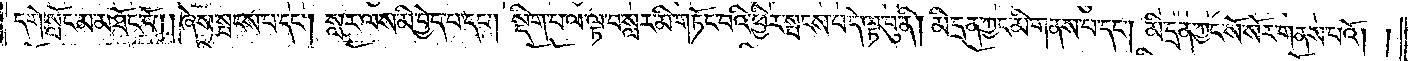དགེ་སློང་མ་མཐོང་ངོ༌། །ཞེས་སྤངས་པ་དང༌། སླར་ལས་མི་བྱེད་པ་དང༌། སྡིག་པ་ལ་ལྟ་བ་སླར་མི་གཏོང་བའི་ཕྱིར་སྤངས་པ་དེ་ལྟ་བུ་ནི། མི་དྲན་ཀྱང་མི་གནས་པ་དང༌། མི་དྲན་ཀྱང་སོ་སོར་གནས་པའོ། །
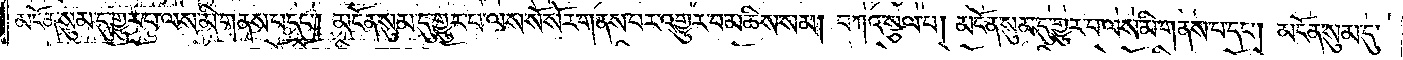མངོན་སུམ་དུ་གྱུར་པ་ལས་མི་གནས་པ་དང༌། མངོན་སུམ་དུ་གྱུར་པ་ལས་སོ་སོར་གནས་པར་འགྱུར་བ་མཆིས་སམ། བཀའ་སྩལ་པ། མངོན་སུམ་དུ་གྱུར་པ་ལས་མི་གནས་པ་དང༌། མངོན་སུམ་དུ་
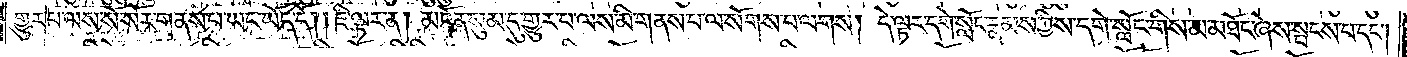གྱུར་པ་ལས་སོ་སོར་གནས་པ་ཡང་ཡོད་དེ། །ཇི་ལྟར་ན། མངོན་སུམ་དུ་གྱུར་པ་ལས་མི་གནས་པ་ལ་སོགས་པ་ལགས། དེ་ལྟར་དགེ་སློང་རྣམས་ཀྱིས་དགེ་སློང་གིས་མ་མཐོང་ཞེས་སྤངས་པ་དང༌།
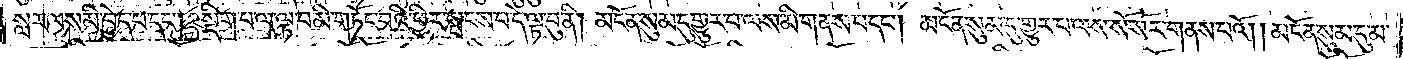སླར་ལས་མི་བྱེད་པ་དང༌། སྡིག་པ་ལ་ལྟ་བ་མི་གཏོང་བའི་ཕྱིར་སྤངས་པ་དེ་ལྟ་བུ་ནི། །མངོན་སུམ་དུ་གྱུར་པ་ལས་མི་གནས་པ་དང༌། མངོན་སུམ་དུ་གྱུར་པ་ལས་སོ་སོར་གནས་པའོ། །མངོན་སུམ་དུ་མ་
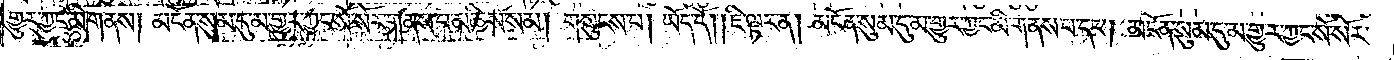གྱུར་ཀྱང་མི་གནས། མངོན་སུམ་དུ་མ་གྱུར་ཀྱང་སོ་སོར་གནས་པ་མཆིས་སམ། གསུངས་པ། ཡོད་དོ། །ཇི་ལྟར་ན། མངོན་སུམ་དུ་མ་གྱུར་ཀྱང་མི་གནས་པ་དང༌། མངོན་སུམ་དུ་མ་གྱུར་ཀྱང་སོ་སོར་
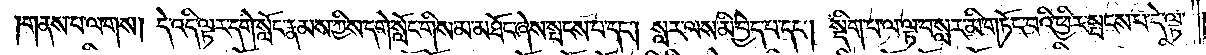གནས་པ་ལགས། དེ་འདི་ལྟར་དགེ་སློང་རྣམས་ཀྱིས་དགེ་སློང་གིས་མ་མཐོང་ཞེས་སྤངས་པ་དང༌། སླར་ལས་མི་བྱེད་པ་དང༌། སྡིག་པ་ལ་ལྟ་བ་སླར་མི་གཏོང་བའི་ཕྱིར་སྤངས་པ་དེ་ལྟ་
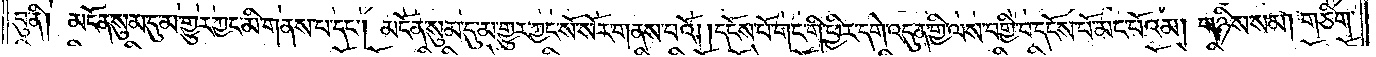བུ་ནི༑ མངོན་སུམ་དུ་མ་གྱུར་ཀྱང་མི་གནས་པ་དང༌། མངོན་སུམ་དུ་མ་གྱུར་ཀྱང་སོ་སོར་གནས་པའོ། །དངོས་པོ་གང་གི་ཕྱིར་དགེ་འདུན་གྱི་ལས་བགྱི་བ་དངོས་པོ་མང་པོའམ། གཉིས་སམ། གཅིག་
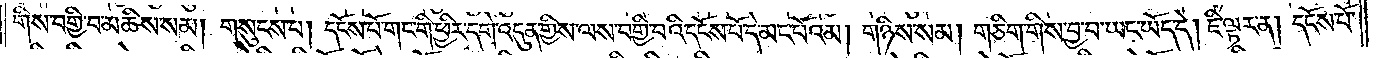གིས་བགྱི་བ་མཆིས་སམ། གསུངས་པ། དངོས་པོ་གང་གི་ཕྱིར་དགེ་འདུན་གྱིས་ལས་བགྱི་བའི་དངོས་པོ་དེ་མང་པོའམ། གཉིས་སམ། གཅིག་གིས་བྱ་བ་ཡང་ཡོད་དེ། ཇི་ལྟར་ན། དངོས་པོ་
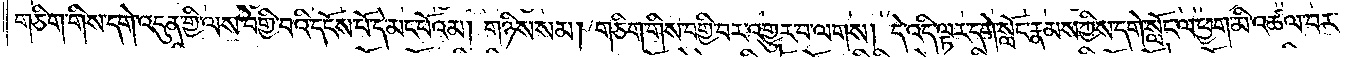གཅིག་གིས་དགེ་འདུན་གྱི་ལས་བགྱི་བའི་དངོས་པོ་དེ་མང་པོའམ། གཉིས་སམ། གཅིག་གིས་བགྱི་བར་འགྱུར་བ་ལགས། དེ་འདི་ལྟར་དགེ་སློང་རྣམས་ཀྱིས་དགེ་སློང་ལ་ཕྱག་མི་འཚལ་བར་
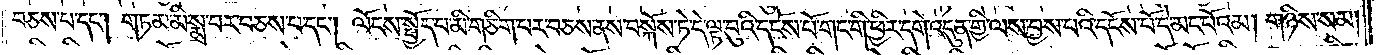བཅས་པ་དང༌། གཏམ་མི་སྨྲ་བར་བཅས་པ་དང༌། ལོངས་སྤྱོད་པ་མི་གཅིག་པར་བཅས་ནས་བསྐོས་ཏེ་དེ་ལྟ་བུའི་དངོས་པོ་གང་གི་ཕྱིར་དགེ་འདུན་གྱི་ལས་བྱས་པའི་དངོས་པོ་དེ་མང་པོའམ། གཉིས་སམ།
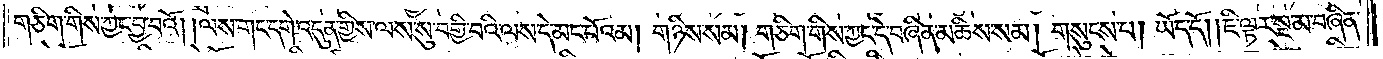གཅིག་གིས་ཀྱང་བྱ་བའོ། །ལས་གང་དགེ་འདུན་གྱིས་ལས་སུ་བགྱི་བའི་ལས་དེ་མང་པོའམ། གཉིས་སམ། གཅིག་གིས་ཀྱང་དེ་བཞིན་མཆིས་སམ། གསུངས་པ། ཡོད་དོ། །ཇི་ལྟར་སྔ་མ་བཞིན་
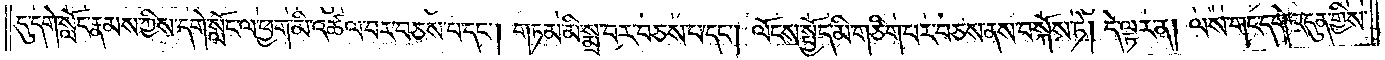དུ་དགེ་སློང་རྣམས་ཀྱིས་དགེ་སློང་ལ་ཕྱག་མི་འཚལ་བར་བཅས་པ་དང༌། གཏམ་མི་སྨྲ་བར་བཅས་པ་དང༌། ལོངས་སྤྱོད་མི་གཅིག་པར་བཅས་ནས་བསྐོས་ཏེ། དེ་ལྟར་ན། ལས་གང་དགེ་འདུན་གྱིས་
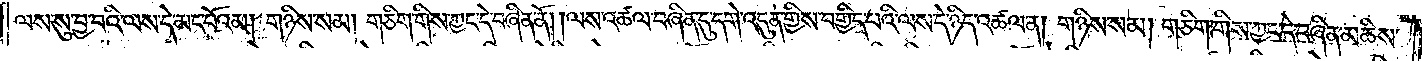ལས་སུ་བྱ་བའི་ལས་དེ་མང་པོའམ། གཉིས་སམ། གཅིག་གིས་ཀྱང་དེ་བཞིན་ནོ། །ལས་འཚལ་བཞིན་དུ་དགེ་འདུན་གྱིས་བགྱིད་པའི་ལས་དེ་ཉིད་འཚལ་ན། གཉིས་སམ། གཅིག་གིས་ཀྱང་དེ་བཞིན་མཆིས་
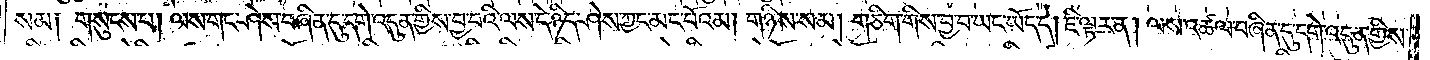སམ༑ གསུངས་པ། ལས་གང་ཤེས་བཞིན་དུ་དགེ་འདུན་གྱིས་བྱ་བའི་ལས་དེ་ཉིད་ཤེས་ཀྱང་མང་པོའམ། གཉིས་སམ། གཅིག་གིས་བྱ་བ་ཡང་ཡོད་དེ། ཇི་ལྟར་ན། ལས་འཚལ་བཞིན་དུ་དགེ་འདུན་གྱིས་
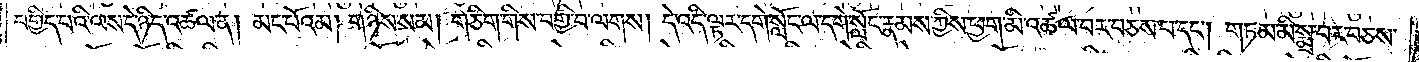བགྱིད་པའི་ལས་དེ་ཉིད་འཚལ་ན། མང་པོའམ། གཉིས་སམ། གཅིག་གིས་བགྱི་བ་ལགས། དེ་འདི་ལྟར་དགེ་སློང་ལ་དགེ་སློང་རྣམས་ཀྱིས་ཕྱག་མི་འཚལ་བར་བཅས་པ་དང༌། གཏམ་མི་སྨྲ་བར་བཅས་
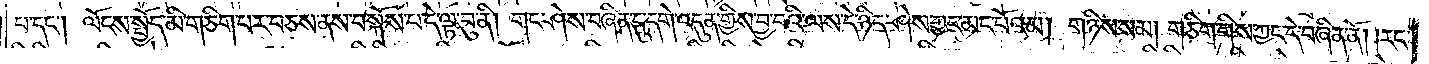པ་དང༌། ལོངས་སྤྱོད་མི་གཅིག་པར་བཅས་ནས་བསྐོས་པ་དེ་ལྟ་བུ་ནི། གང་ཤེས་བཞིན་དུ་དགེ་འདུན་གྱིས་བྱ་བའི་ལས་དེ་ཉིད་ཤེས་ཀྱང་མང་པོའམ། གཉིས་སམ། གཅིག་གིས་ཀྱང་དེ་བཞིན་ནོ། །རང་
